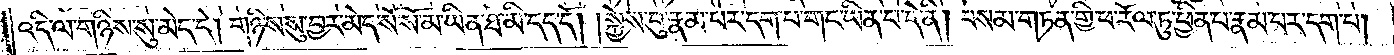འདི་ལ་གཉིས་སུ་མེད་དེ། གཉིས་སུ་བྱར་མེད་སོ་སོ་མ་ཡིན་ཐ་མི་དད་དོ། །སྐྱེས་བུ་རྣམ་པར་དག་པ་གང་ཡིན་པ་དེ་ནི། བསམ་གཏན་གྱི་ཕ་རོལ་ཏུ་ཕྱིན་པ་རྣམ་པར་དག་པ།
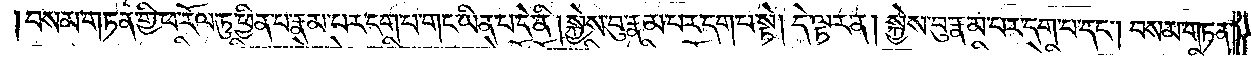བསམ་གཏན་གྱི་ཕ་རོལ་ཏུ་ཕྱིན་པ་རྣམ་པར་དག་པ་གང་ཡིན་པ་དེ་ནི། སྐྱེས་བུ་རྣམ་པར་དག་པ་སྟེ། དེ་ལྟར་ན། སྐྱེས་བུ་རྣམ་པར་དག་པ་དང༌། བསམ་གཏན་
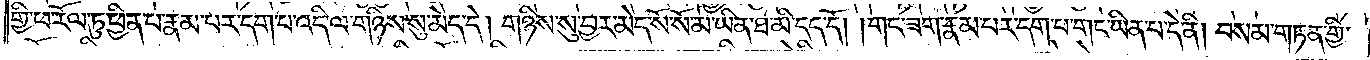གྱི་ཕ་རོལ་ཏུ་ཕྱིན་པ་རྣམ་པར་དག་པ་འདི་ལ་གཉིས་སུ་མེད་དེ། གཉིས་སུ་བྱར་མེད་སོ་སོ་མ་ཡིན་ཐ་མི་དད་དོ། །གང་ཟག་རྣམ་པར་དག་པ་གང་ཡིན་པ་དེ་ནི། བསམ་གཏན་གྱི་
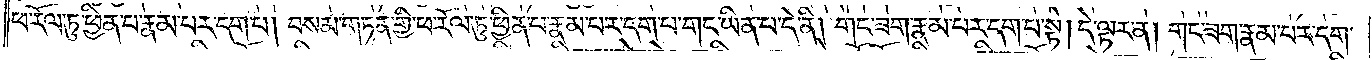ཕ་རོལ་ཏུ་ཕྱིན་པ་རྣམ་པར་དག་པ། བསམ་གཏན་གྱི་ཕ་རོལ་ཏུ་ཕྱིན་པ་རྣམ་པར་དག་པ་གང་ཡིན་པ་དེ་ནི། གང་ཟག་རྣམ་པར་དག་པ་སྟེ། དེ་ལྟར་ན། གང་ཟག་རྣམ་པར་དག་
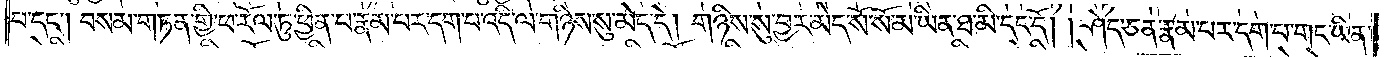པ་དང༌། བསམ་གཏན་གྱི་ཕ་རོལ་ཏུ་ཕྱིན་པ་རྣམ་པར་དག་པ་འདི་ལ་གཉིས་སུ་མེད་དེ། གཉིས་སུ་བྱར་མེད་སོ་སོ་མ་ཡིན་ཐ་མི་དད་དོ། ། ཤེད་ཅན་རྣམ་པར་དག་པ་གང་ཡིན་
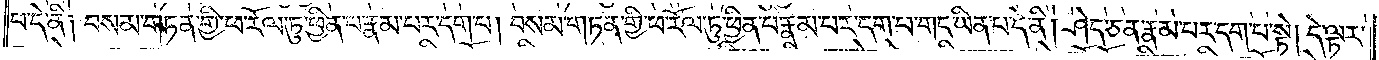པ་དེ་ནི། བསམ་གཏན་གྱི་ཕ་རོལ་ཏུ་ཕྱིན་པ་རྣམ་པར་དག་པ། བསམ་གཏན་གྱི་ཕ་རོལ་ཏུ་ཕྱིན་པ་རྣམ་པར་དག་པ་གང་ཡིན་པ་དེ་ནི། ཤེད་ཅན་རྣམ་པར་དག་པ་སྟེ། དེ་ལྟར་
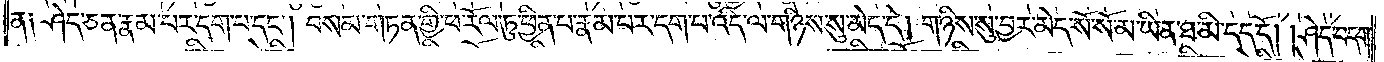ན། ཤེད་ཅན་རྣམ་པར་དག་པ་དང༌། བསམ་གཏན་གྱི་ཕ་རོལ་ཏུ་ཕྱིན་པ་རྣམ་པར་དག་པ་འདི་ལ་གཉིས་སུ་མེད་དེ། གཉིས་སུ་བྱར་མེད་སོ་སོ་མ་ཡིན་ཐ་མི་དད་དོ། །ཤེད་བདག་
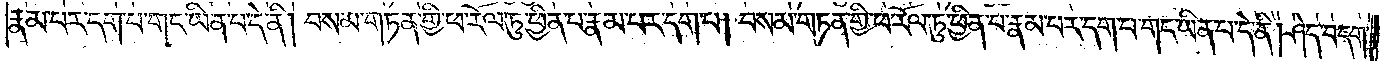རྣམ་པར་དག་པ་གང་ཡིན་པ་དེ་ནི། བསམ་གཏན་གྱི་ཕ་རོལ་ཏུ་ཕྱིན་པ་རྣམ་པར་དག་པ། བསམ་གཏན་གྱི་ཕ་རོལ་ཏུ་ཕྱིན་པ་རྣམ་པར་དག་པ་གང་ཡིན་པ་དེ་ནི། ཤེད་བདག་
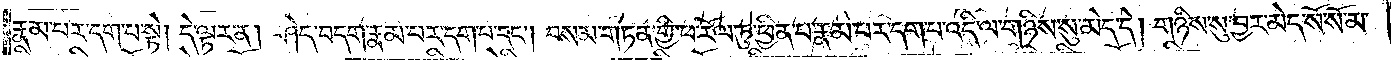རྣམ་པར་དག་པ་སྟེ། དེ་ལྟར་ན། ཤེད་བདག་རྣམ་པར་དག་པ་དང༌། བསམ་གཏན་གྱི་ཕ་རོལ་ཏུ་ཕྱིན་པ་རྣམ་པར་དག་པ་འདི་ལ་གཉིས་སུ་མེད་དེ། གཉིས་སུ་བྱར་མེད་སོ་སོ་མ་
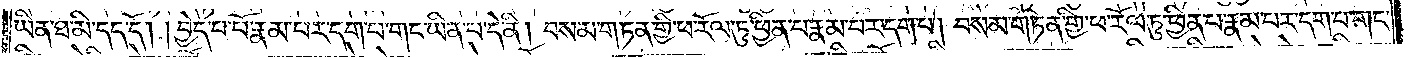ཡིན་ཐ་མི་དད་དོ། །བྱེད་པ་པོ་རྣམ་པར་དག་པ་གང་ཡིན་པ་དེ་ནི། བསམ་གཏན་གྱི་ཕ་རོལ་ཏུ་ཕྱིན་པ་རྣམ་པར་དག་པ། བསམ་གཏན་གྱི་ཕ་རོལ་ཏུ་ཕྱིན་པ་རྣམ་པར་དག་པ་གང་
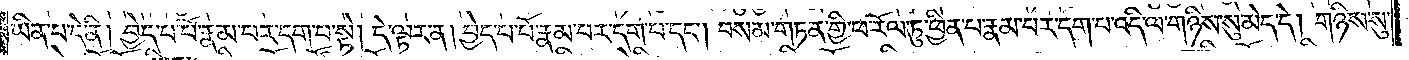ཡིན་པ་དེ་ནི། བྱེད་པ་པོ་རྣམ་པར་དག་པ་སྟེ། དེ་ལྟར་ན། བྱེད་པ་པོ་རྣམ་པར་དག་པ་དང༌། བསམ་གཏན་གྱི་ཕ་རོལ་ཏུ་ཕྱིན་པ་རྣམ་པར་དག་པ་འདི་ལ་གཉིས་སུ་མེད་དེ། གཉིས་སུ་
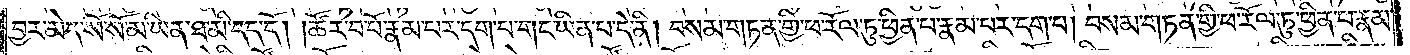བྱར་མེད་སོ་སོ་མ་ཡིན་ཐ་མི་དད་དོ། །ཚོར་བ་པོ་རྣམ་པར་དག་པ་གང་ཡིན་པ་དེ་ནི། བསམ་གཏན་གྱི་ཕ་རོལ་ཏུ་ཕྱིན་པ་རྣམ་པར་དག་པ། བསམ་གཏན་གྱི་ཕ་རོལ་ཏུ་ཕྱིན་པ་རྣམ་
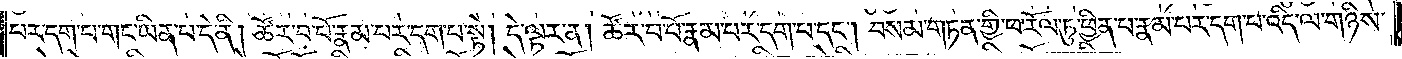པར་དག་པ་གང་ཡིན་པ་དེ་ནི། ཚོར་བ་པོ་རྣམ་པར་དག་པ་སྟེ། དེ་ལྟར་ན། ཚོར་བ་པོ་རྣམ་པར་དག་པ་དང༌། བསམ་གཏན་གྱི་ཕ་རོལ་ཏུ་ཕྱིན་པ་རྣམ་པར་དག་པ་འདི་ལ་གཉིས་
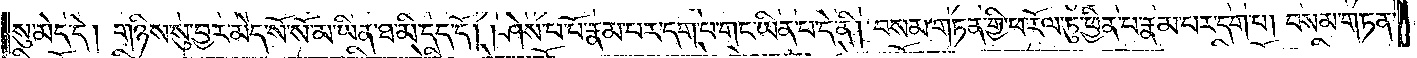སུ་མེད་དེ། གཉིས་སུ་བྱར་མེད་སོ་སོ་མ་ཡིན་ཐ་མི་དད་དོ། །ཤེས་པ་པོ་རྣམ་པར་དག་པ་གང་ཡིན་པ་དེ་ནི། བསམ་གཏན་གྱི་ཕ་རོལ་ཏུ་ཕྱིན་པ་རྣམ་པར་དག་པ། བསམ་གཏན་
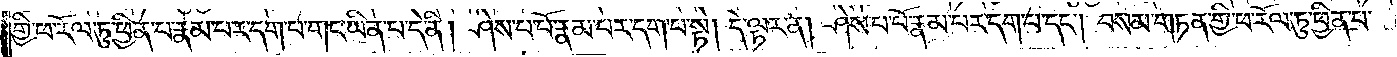གྱི་ཕ་རོལ་ཏུ་ཕྱིན་པ་རྣམ་པར་དག་པ་གང་ཡིན་པ་དེ་ནི། ཤེས་པ་པོ་རྣམ་པར་དག་པ་སྟེ། དེ་ལྟར་ན། ཤེས་པ་པོ་རྣམ་པར་དག་པ་དང༌། བསམ་གཏན་གྱི་ཕ་རོལ་ཏུ་ཕྱིན་པ་
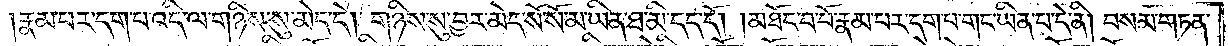རྣམ་པར་དག་པ་འདི་ལ་གཉིས་སུ་མེད་དེ། གཉིས་སུ་བྱར་མེད་སོ་སོ་མ་ཡིན་ཐ་མི་དད་དོ། །མཐོང་བ་པོ་རྣམ་པར་དག་པ་གང་ཡིན་པ་དེ་ནི། བསམ་གཏན་
